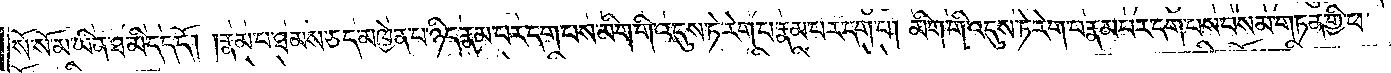སོ་སོ་མ་ཡིན་ཐ་མི་དད་དོ། །རྣམ་པ་ཐམས་ཅད་མཁྱེན་པ་ཉིད་རྣམ་པར་དག་པས་མིག་གི་འདུས་ཏེ་རེག་པ་རྣམ་པར་དག་པ། མིག་གི་འདུས་ཏེ་རེག་པ་རྣམ་པར་དག་པས་བསམ་གཏན་གྱི་ཕ་
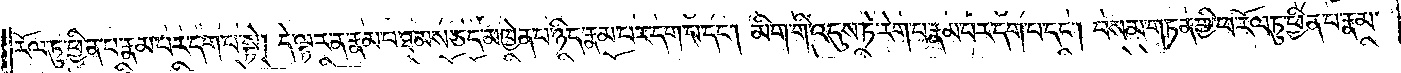རོལ་ཏུ་ཕྱིན་པ་རྣམ་པར་དག་པ་སྟེ། དེ་ལྟར་ན་རྣམ་པ་ཐམས་ཅད་མཁྱེན་པ་ཉིད་རྣམ་པར་དག་པ་དང༌། མིག་གི་འདུས་ཏེ་རེག་པ་རྣམ་པར་དག་པ་དང༌། བསམ་གཏན་གྱི་ཕ་རོལ་ཏུ་ཕྱིན་པ་རྣམ་
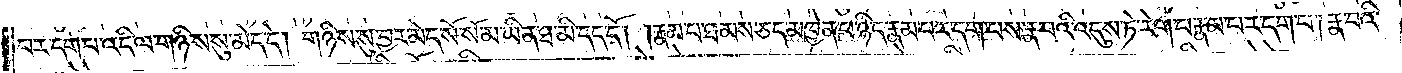པར་དག་པ་འདི་ལ་གཉིས་སུ་མེད་དེ། གཉིས་སུ་བྱར་མེད་སོ་སོ་མ་ཡིན་ཐ་མི་དད་དོ། །རྣམ་པ་ཐམས་ཅད་མཁྱེན་པ་ཉིད་རྣམ་པར་དག་པས་རྣ་བའི་འདུས་ཏེ་རེག་པ་རྣམ་པར་དག་པ། རྣ་བའི་
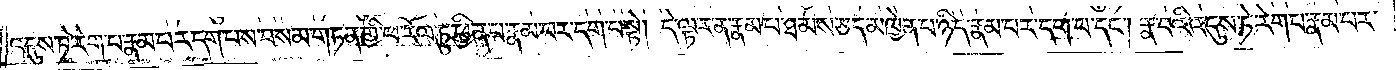འདུས་ཏེ་རེག་པ་རྣམ་པར་དག་པས་བསམ་གཏན་གྱི་ཕ་རོལ་ཏུ་ཕྱིན་པ་རྣམ་པར་དག་པ་སྟེ། དེ་ལྟར་ན་རྣམ་པ་ཐམས་ཅད་མཁྱེན་པ་ཉིད་རྣམ་པར་དག་པ་དང༌། རྣ་བའི་འདུས་ཏེ་རེག་པ་རྣམ་པར་
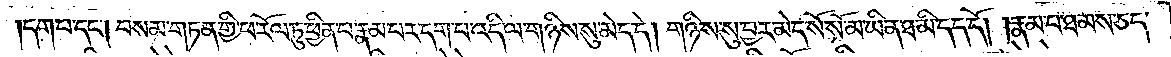དག་པ་དང༌། བསམ་གཏན་གྱི་ཕ་རོལ་ཏུ་ཕྱིན་པ་རྣམ་པར་དག་པ་འདི་ལ་གཉིས་སུ་མེད་དེ། གཉིས་སུ་བྱར་མེད་སོ་སོ་མ་ཡིན་ཐ་མི་དད་དོ། །རྣམ་པ་ཐམས་ཅད་
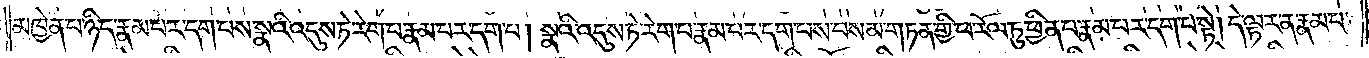མཁྱེན་པ་ཉིད་རྣམ་པར་དག་པས་སྣའི་འདུས་ཏེ་རེག་པ་རྣམ་པར་དག་པ། སྣའི་འདུས་ཏེ་རེག་པ་རྣམ་པར་དག་པས་བསམ་གཏན་གྱི་ཕ་རོལ་ཏུ་ཕྱིན་པ་རྣམ་པར་དག་པ་སྟེ། དེ་ལྟར་ན་རྣམ་པ་
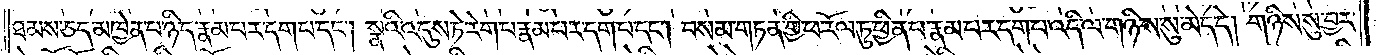ཐམས་ཅད་མཁྱེན་པ་ཉིད་རྣམ་པར་དག་པ་དང༌། སྣའི་འདུས་ཏེ་རེག་པ་རྣམ་པར་དག་པ་དང༌། བསམ་གཏན་གྱི་ཕ་རོལ་ཏུ་ཕྱིན་པ་རྣམ་པར་དག་པ་འདི་ལ་གཉིས་སུ་མེད་དེ། གཉིས་སུ་བྱར་
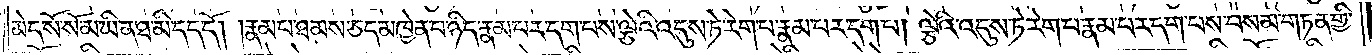མེད་སོ་སོ་མ་ཡིན་ཐ་མི་དད་དོ། །རྣམ་པ་ཐམས་ཅད་མཁྱེན་པ་ཉིད་རྣམ་པར་དག་པས་ལྕེའི་འདུས་ཏེ་རེག་པ་རྣམ་པར་དག་པ། ལྕེའི་འདུས་ཏེ་རེག་པ་རྣམ་པར་དག་པས་བསམ་གཏན་གྱི་
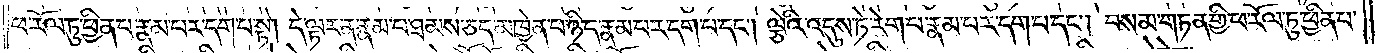ཕ་རོལ་ཏུ་ཕྱིན་པ་རྣམ་པར་དག་པ་སྟེ། དེ་ལྟར་ན་རྣམ་པ་ཐམས་ཅད་མཁྱེན་པ་ཉིད་རྣམ་པར་དག་པ་དང༌། ལྕེའི་འདུས་ཏེ་རེག་པ་རྣམ་པར་དག་པ་དང༌། བསམ་གཏན་གྱི་ཕ་རོལ་ཏུ་ཕྱིན་པ་
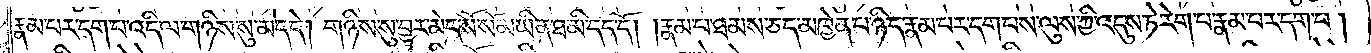རྣམ་པར་དག་པ་འདི་ལ་གཉིས་སུ་མེད་དེ། གཉིས་སུ་བྱར་མེད་སོ་སོ་མ་ཡིན་ཐ་མི་དད་དོ། །རྣམ་པ་ཐམས་ཅད་མཁྱེན་པ་ཉིད་རྣམ་པར་དག་པས་ལུས་ཀྱི་འདུས་ཏེ་རེག་པ་རྣམ་པར་དག་པ།
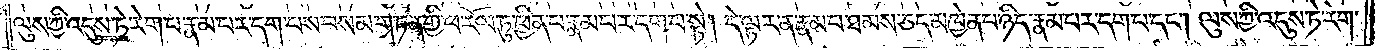ལུས་ཀྱི་འདུས་ཏེ་རེག་པ་རྣམ་པར་དག་པས་བསམ་གཏན་གྱི་ཕ་རོལ་ཏུ་ཕྱིན་པ་རྣམ་པར་དག་པ་སྟེ། དེ་ལྟར་ན་རྣམ་པ་ཐམས་ཅད་མཁྱེན་པ་ཉིད་རྣམ་པར་དག་པ་དང༌། ལུས་ཀྱི་འདུས་ཏེ་རེག་
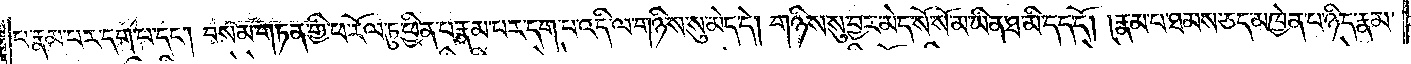པ་རྣམ་པར་དག་པ་དང༌། བསམ་གཏན་གྱི་ཕ་རོལ་ཏུ་ཕྱིན་པ་རྣམ་པར་དག་པ་འདི་ལ་གཉིས་སུ་མེད་དེ། གཉིས་སུ་བྱར་མེད་སོ་སོ་མ་ཡིན་ཐ་མི་དད་དོ། །རྣམ་པ་ཐམས་ཅད་མཁྱེན་པ་ཉིད་རྣམ་
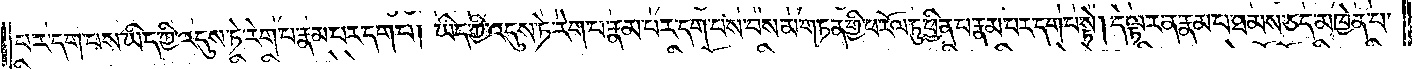པར་དག་པས་ཡིད་ཀྱི་འདུས་ཏེ་རེག་པ་རྣམ་པར་དག་པ། ཡིད་ཀྱི་འདུས་ཏེ་རེག་པ་རྣམ་པར་དག་པས་བསམ་གཏན་གྱི་ཕ་རོལ་ཏུ་ཕྱིན་པ་རྣམ་པར་དག་པ་སྟེ། དེ་ལྟར་ན་རྣམ་པར་ཐམས་ཅད་མཁྱེན་པ་
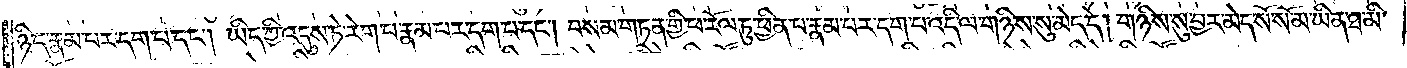ཉིད་རྣམ་པར་དག་པ་དང༌། ཡིད་ཀྱི་འདུས་ཏེ་རེག་པ་རྣམ་པར་དག་པ་དང༌། བསམ་གཏན་གྱི་ཕ་རོལ་ཏུ་ཕྱིན་པ་རྣམ་པར་དག་པ་འདི་ལ་གཉིས་སུ་མེད་དེ། གཉིས་སུ་བྱར་མེད་སོ་སོ་མ་ཡིན་ཐ་མི་
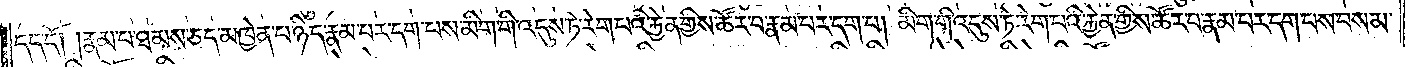དད་དོ། །རྣམ་པ་ཐམས་ཅད་མཁྱེན་པ་ཉིད་རྣམ་པར་དག་པས་མིག་གི་འདུས་ཏེ་རེག་པའི་རྐྱེན་གྱིས་ཚོར་བ་རྣམ་པར་དག་པ། མིག་གི་འདུས་ཏེ་རེག་པའི་རྐྱེན་གྱིས་ཚོར་བ་རྣམ་པར་དག་པས་བསམ་
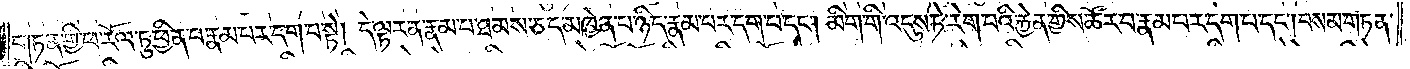གཏན་གྱི་ཕ་རོལ་ཏུ་ཕྱིན་པ་རྣམ་པར་དག་པ་སྟེ། དེ་ལྟར་ན་རྣམ་པ་ཐམས་ཅད་མཁྱེན་པ་ཉིད་རྣམ་པར་དག་པ་དང༌། མིག་གི་འདུས་ཏེ་རེག་པའི་རྐྱེན་གྱིས་ཚོར་བ་རྣམ་པར་དག་པ་དང༌། བསམ་གཏན་
